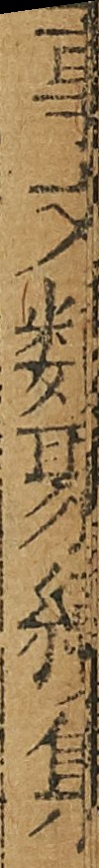事文類聚續集
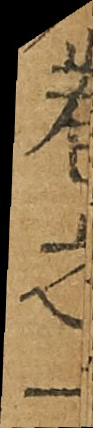卷之一
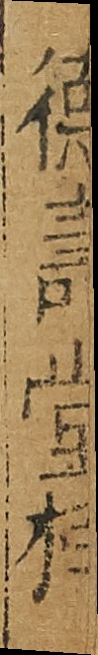德壽堂梓
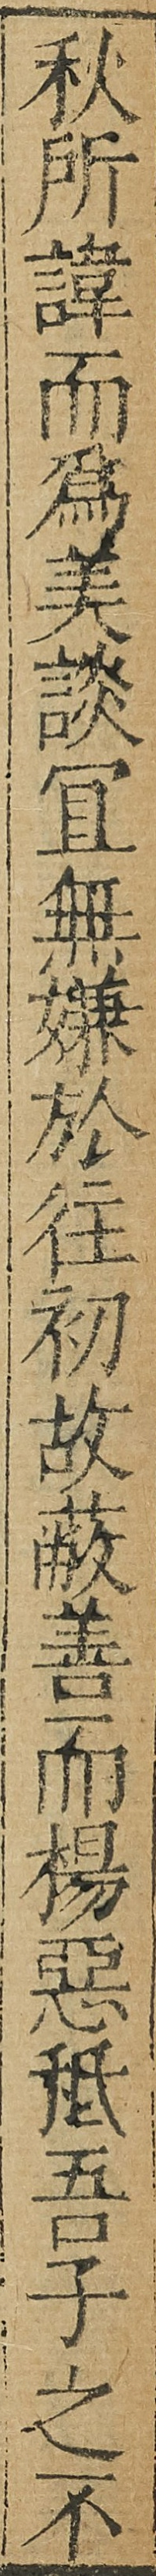秋所諱而為美談宜無嫌於徃初故蔽善而揚惡祗吾子之不
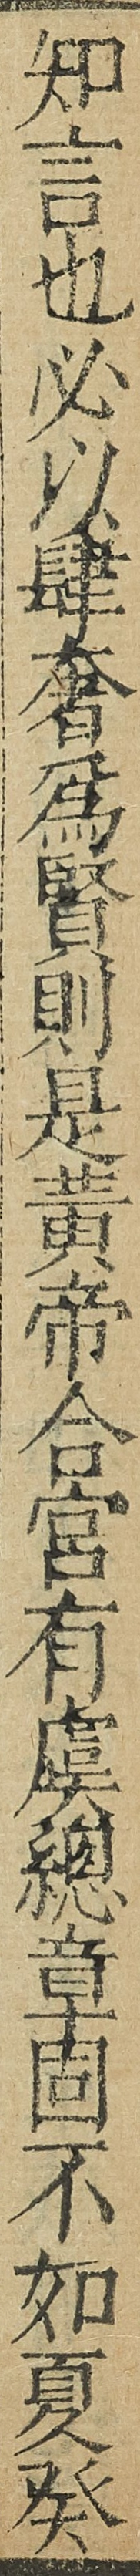知言也必以肆奢為賢則是黄帝合宫有虞總章固不如夏癸
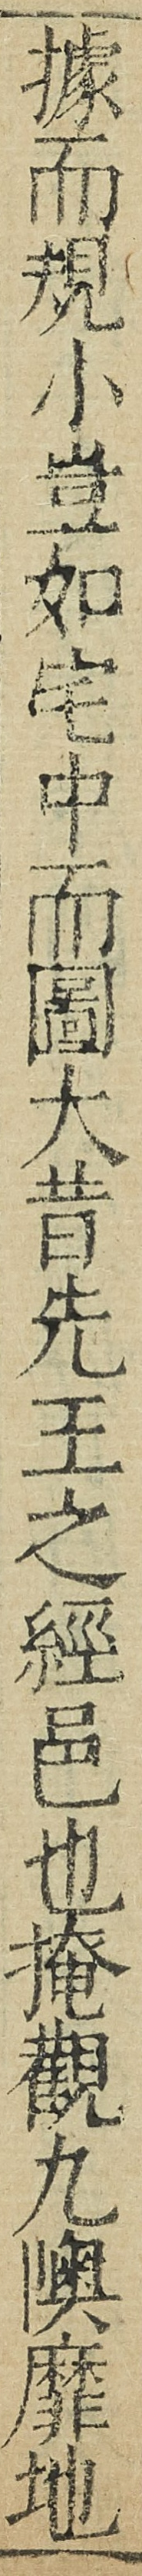據而規小豈如宅中而圖大昔先王之經邑也掩觀九隩靡地
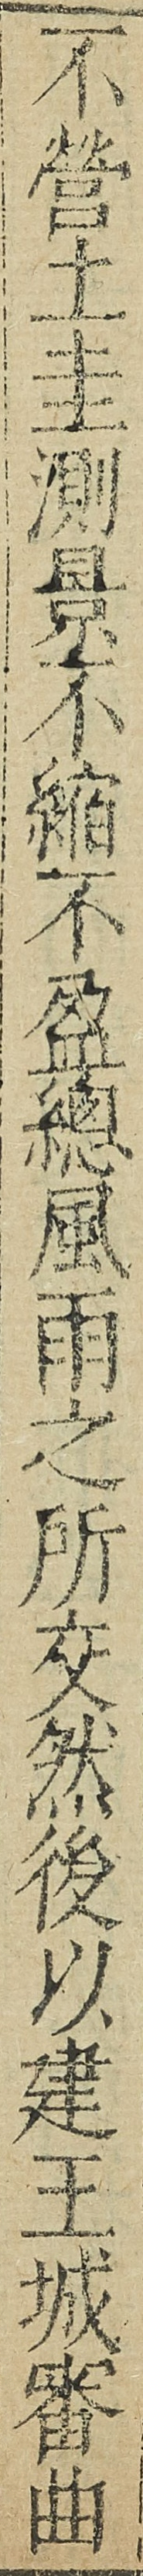不營土圭測景不縮不盈總風雨之所交然後以建王城審曲
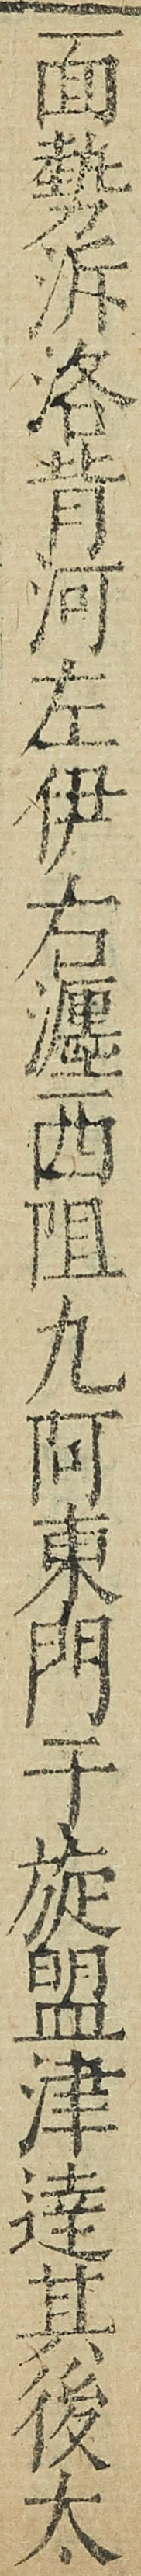面勢泝洛背河左伊右瀍西阻九阿東門于旋盟津達其後太
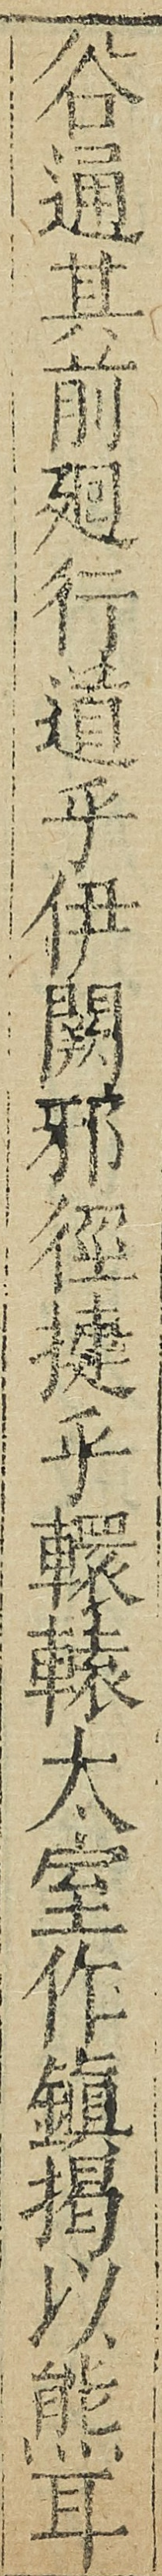谷通其前廻行道乎伊闕邪徑捷乎轘轅太室作鎮掲以熊耳
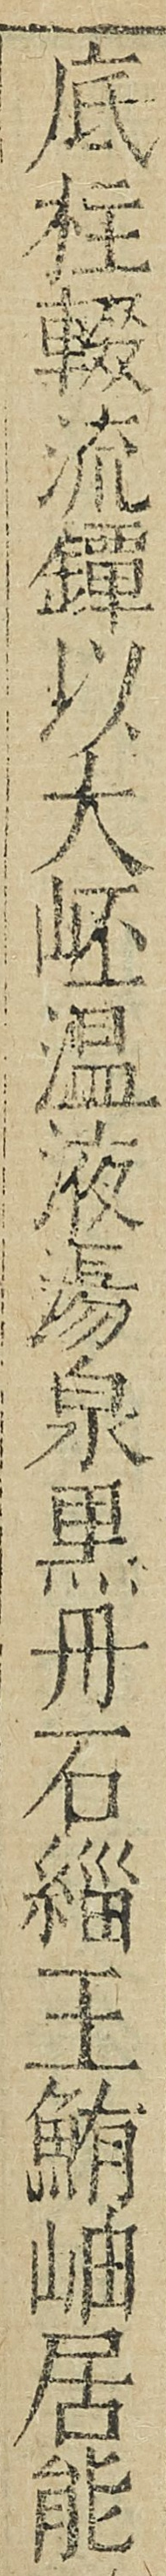底柱輟流鐔以大岯温液湯泉黒丹石緇王鮪岫居能
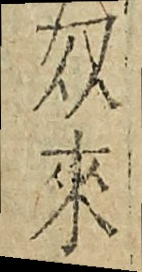奴來
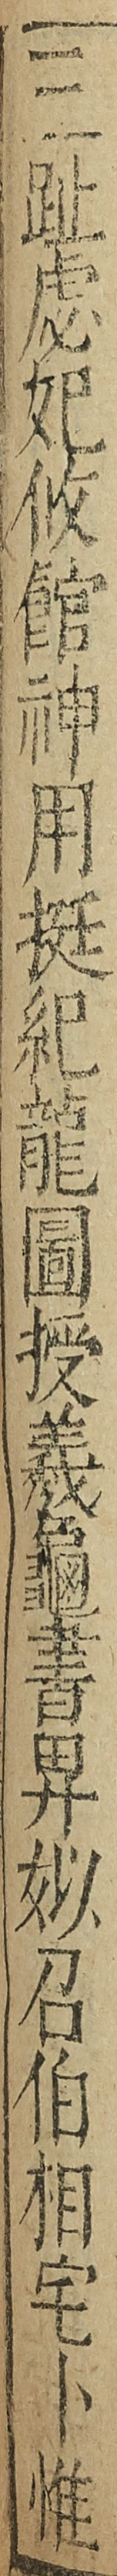三趾虙妃攸館神用挺紀龍圖授羲龜書畀姒召伯相宅卜惟
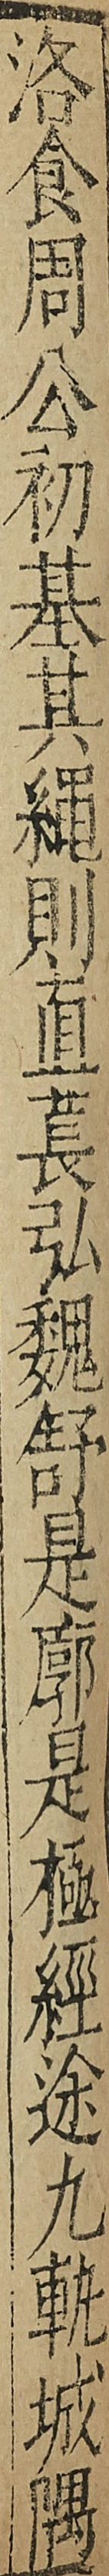洛食周公初基其繩則直萇弘魏舒是廓是極經途九軌城隅
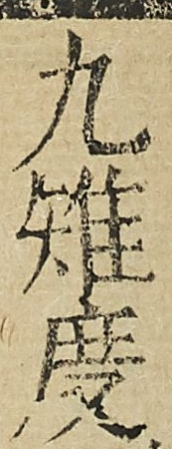九雉度
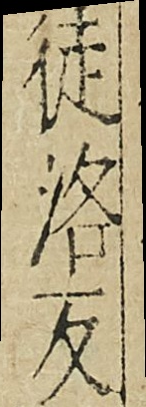徒洛反
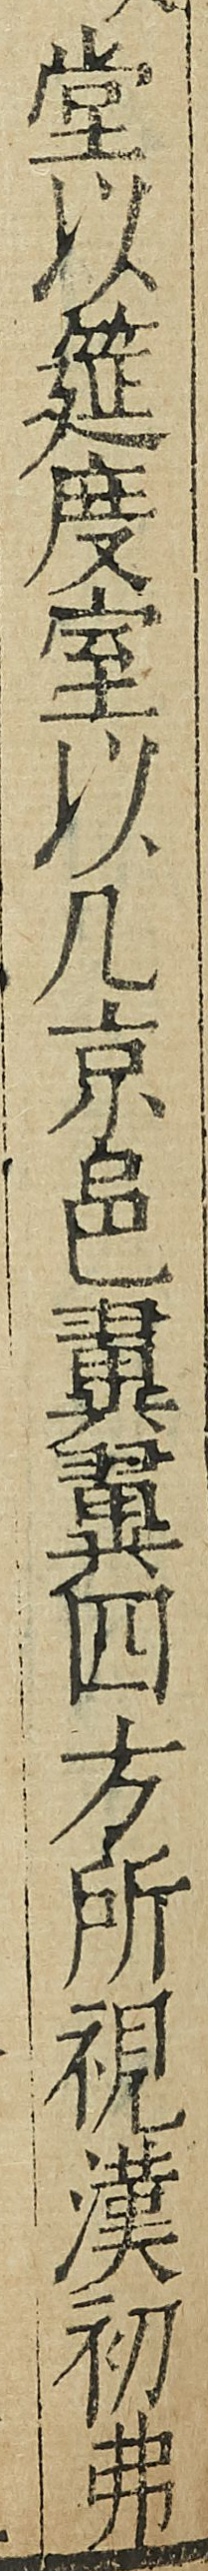堂以筵度室以几京邑翼翼四方所視漢初弗
